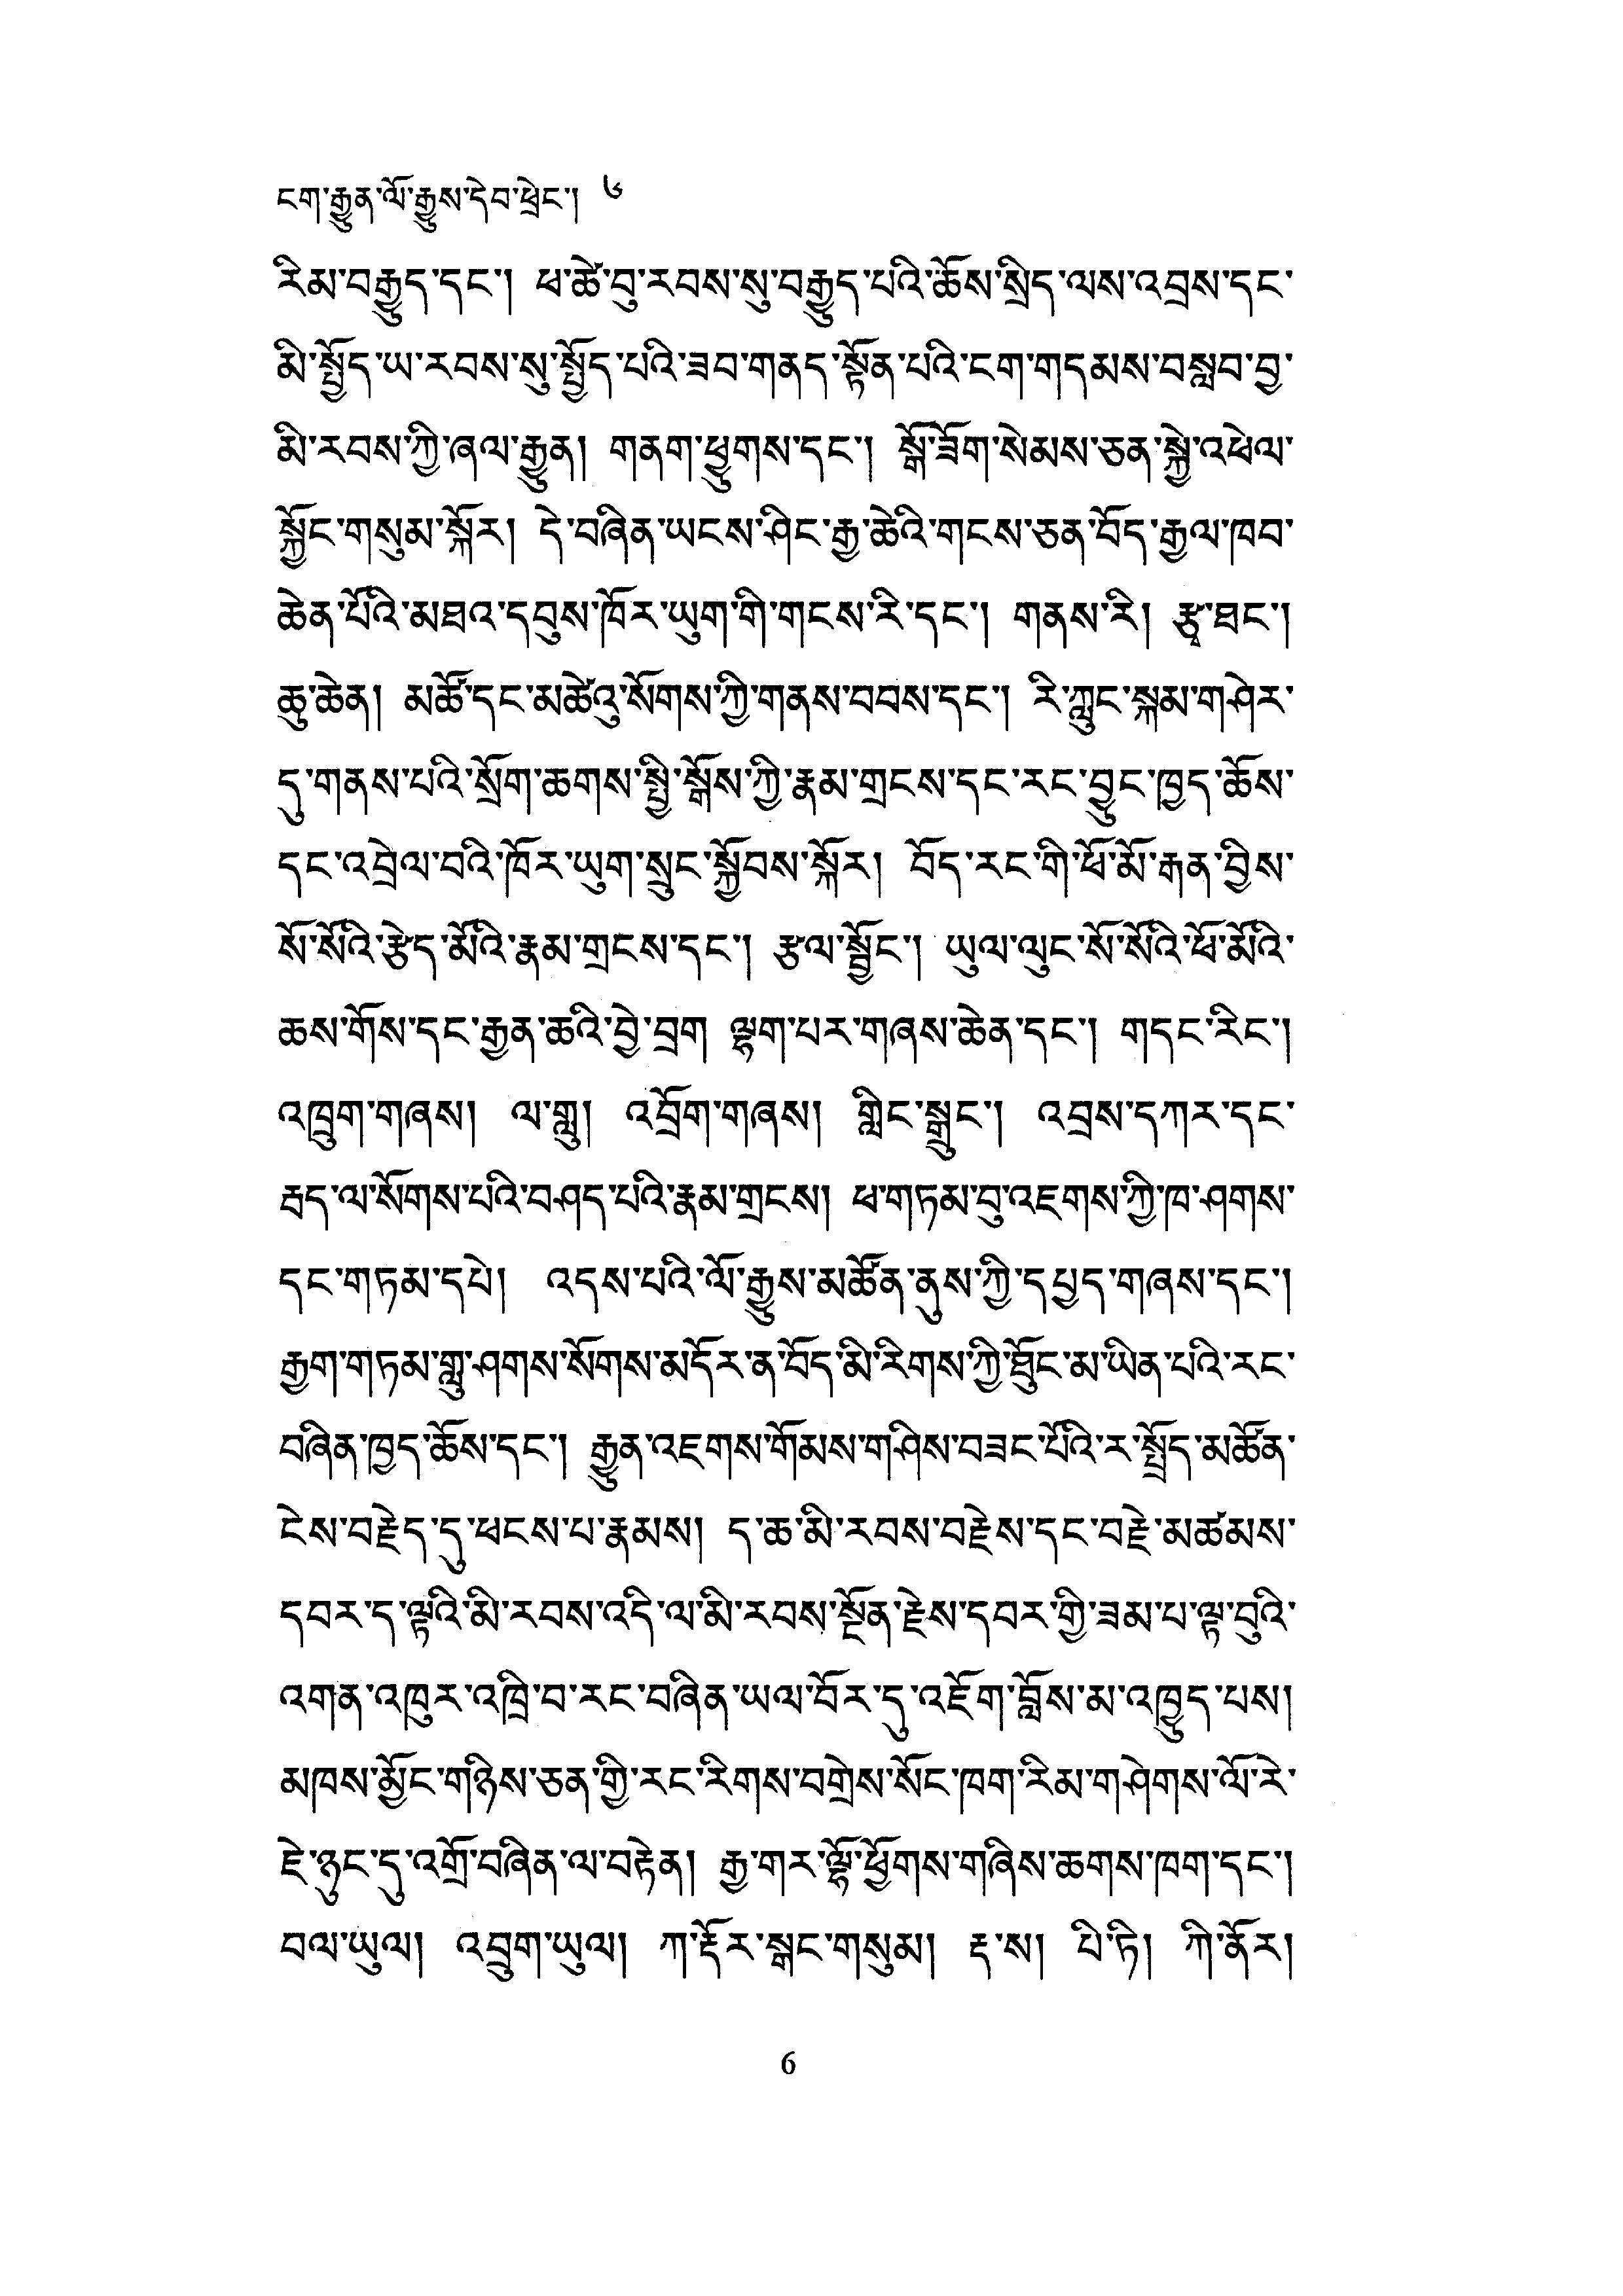ངག་རྒྱུན་ལོ་རྒྱུས་དེབ་ཕྲེང་། ༦
རིམ་བརྒྱུད་དང་། ཕ་ཚེ་བུ་རབས་སུ་བརྒྱུད་པའི་ཆོས་སྲིད་ལས་འབྲས་དང་
མི་སྤྱོད་ཡ་རབས་སུ་སྤྱོད་པའི་ཟབ་གནད་སྟོན་པའི་ངག་གདམས་བསླབ་བྱ་
མི་རབས་ཀྱི་ཞལ་རྒྱུན། གནག་ཕྱུགས་དང་། སྒོ་ཟོག་སེམས་ཅན་སྐྱེ་འཕེལ་
སྐྱོང་གསུམ་སྐོར། དེ་བཞིན་ཡངས་ཤིང་རྒྱ་ཆེའི་གངས་ཅན་བོད་རྒྱལ་ཁབ་
ཆེན་པོའི་མཐའ་དབུས་ཁོར་ཡུག་གི་གངས་རི་དང་། གནས་རི། རྩྭ་ཐང་།
ཆུ་ཆེན། མཚོ་དང་མཚེའུ་སོགས་ཀྱི་གནས་བབས་དང་། རི་ཀླུང་སྐམ་གཤེར་
དུ་གནས་པའི་སྲོག་ཆགས་སྤྱི་སྒོས་ཀྱི་རྣམ་གྲངས་དང་རང་བྱུང་ཁྱད་ཆོས་
དང་འབྲེལ་བའི་ཁོར་ཡུག་སྲུང་སྐྱོབས་སྐོར། བོད་རང་གི་ཕོ་མོ་རྒན་བྱིས་
སོ་སོའི་རྩེད་མོའི་རྣམ་གྲངས་དང་། རྩལ་སྦྱོང་། ཡུལ་ལུང་སོ་སོའི་ཕོ་མོའི་
ཆས་གོས་དང་རྒྱན་ཆའི་བྱེ་བྲག ལྷག་པར་གཞས་ཆེན་དང་། གདུང་རིང་།
འཁྲུག་གཞས། ལ་གླུ། འབྲོག་གཞས། གླིང་སྒྲུང་། འབྲས་དཀར་དང་
རྦད་ལ་སོགས་པའི་བཤད་པའི་རྣམ་གྲངས། ཕ་གཏམ་བུ་འཇགས་ཀྱི་ཁ་ཤུགས་
དང་གཏམ་དཔེ། འདས་པའི་ལོ་རྒྱུས་མཚོན་ནུས་ཀྱི་དཔྱད་གཞས་དང་།
རྒྱག་གཏམ་གླུ་ཤགས་སོགས་མདོར་ན་བོད་མི་རིགས་ཀྱི་ཐོུང་མ་ཡིན་པའི་རང་
བཞིན་ཁྱད་ཆོས་དང་། རྒྱུན་འཇགས་གོམས་གཤིས་བཟང་པོའི་ར་སྤྲོད་མཚོན་
ངེས་བརྗེད་དུ་ཕངས་པ་རྣམས། ད་ཆ་མི་རབས་བརྗེས་དང་བརྗེ་མཚམས་
དབར་ད་ལྟའི་མི་རབས་འདི་ལ་མི་རབས་སྔོན་རྗེས་དབར་གྱི་ཟམ་པ་ལྟ་བུའི་
འགན་འཁུར་འཁྲི་བ་རང་བཞིན་ཡལ་བོར་དུ་འཇོག་བློས་མ་འཁྱུད་པས།
མཁས་མྱོང་གཉིས་ཅན་གྱི་རང་རིགས་བགྲེས་སོང་ཁག་རིམ་གཤེགས་ལོ་རེ་
ཇེ་ཉུང་དུ་འགྲོ་བཞིན་ལ་བརྟེན། རྒྱ་གར་ལྷོ་ཕྱོགས་གཉིས་ཆགས་ཁག་དང་།
བལ་ཡུལ། འབྲུག་ཡུལ། ཀ་རྡོར་སྒང་གསུམ། རྡ་ས། པི་ཏི། ཀི་ནོར།
6
